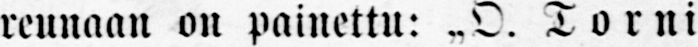reunaan on painettu: „O. Torniai-
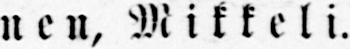nen, Mikkeli.
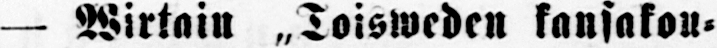— Wirtain „Toisweden kansakou-
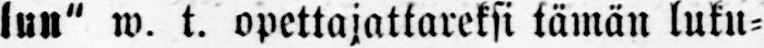lun" w. t. opettajattareksi tämän luku-
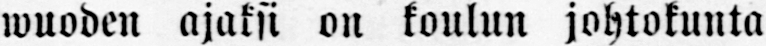wuoden ajaksi on koulun johtokunta
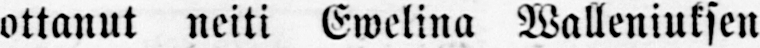ottanut neiti Ewelina Walleniuksen
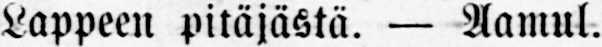Lappeen pitäjästä. — Aamul.
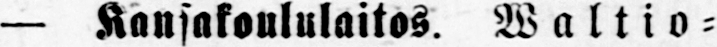— Kansakoululaitos. Waltio-
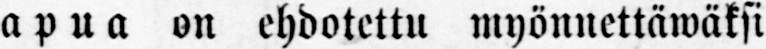apua on ehdotettu myönnettäwäksi
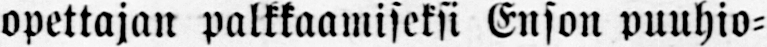opettajan palkkaamiseksi Enson puuhio-
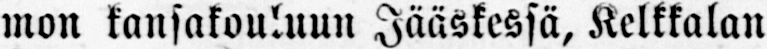mon kansakouluun Jääskessä, Kelkkalan
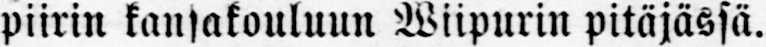piirin kansakouluun Wiipurin pitäjässä.
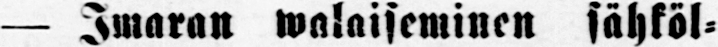— Imaran walaiseminen sähköl-
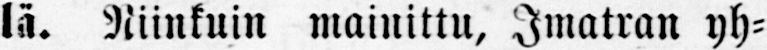lä. Niinkuin mainittu, Imatran yh-
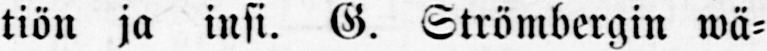tiön ja insi. G. Strömbergin wä-
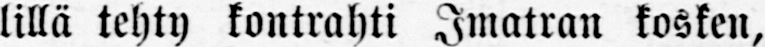lillä tehty kontrahti Imatran kosken,
